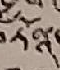བཏོན་
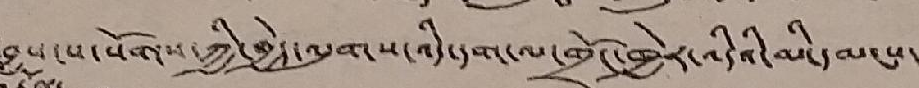བྱས་པ་སོགས་ཀྱི་གྱེད་ལུགས་འདི་དག་ལ་གྲོང་ཁྱེར་འདིའི་མི་དམངས་
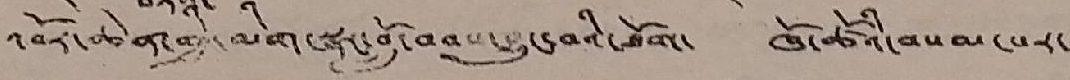འབོར་ཆེན་གྱི་མིག་སྣང་བློ་བབས་བྱུང་བའི་ཐོག་ ཁོ་ཚོའི་བསམ་པར་
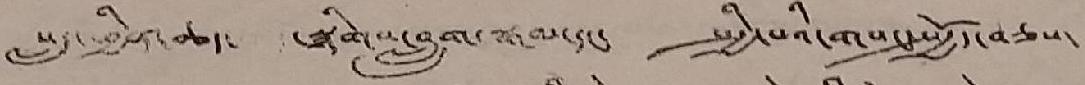སླར་ཕྱིན་ཆད་ སྙིགས་བླུགས་སྒམ་དང་ སྤྱི་པའི་གསང་སྤྱོད་བཅས་
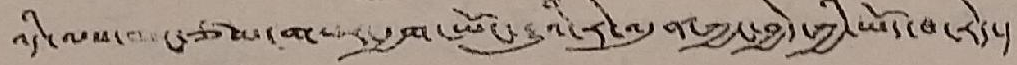འདི་ལས་མང་ཙམ་གསར་རྒྱག་ཡོང་རྒྱུའི་རེ་འདུན་ཀྱང་བྱེད་ཀྱི་ཡོད་པ་རེད་།
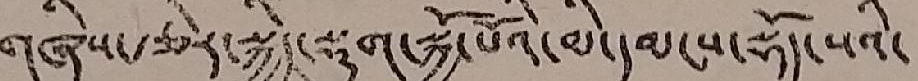གཞིས་རྩེར་སྐྱིད་སྡུག་སྐྱོ་པོའི་མི་དམངས་སྡོད་པའི་
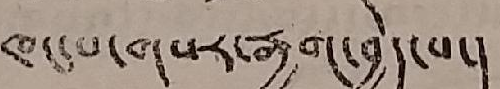ཁང་པ་གསར་རྒྱག་བྱེད་པ་།
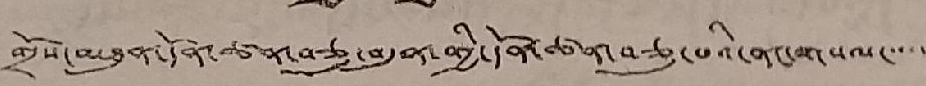གྲོས་མཐུན་དོན་ཚན་བཅུ་བདུན་གྱི་དོན་ཚན་བཅུ་པའི་ནང་གསལ་ལ་་་་་
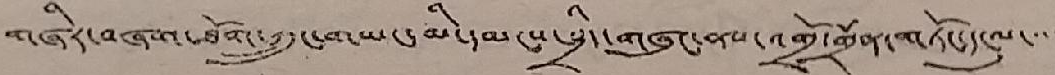གཞིར་བཞག་ཐོག་ཀྲུང་གཡང་མི་དམངས་སྲིད་གཞུང་ནས་འགྲོ་གྲོན་གཏོང་དངུལ་་་་
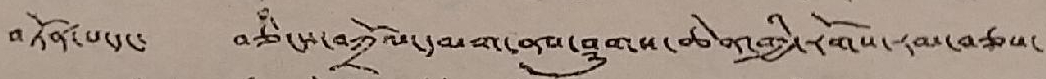བཏོན་པ་དང་ བཅིངས་བཀྲོལ་དམག་ནས་ཤུགས་ཆེན་གྱི་རོགས་རམ་བཅས་
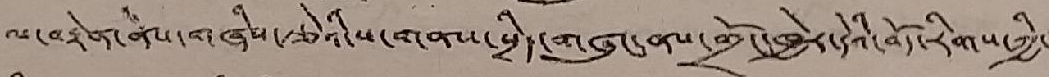ལ་བརྟེན་ནས་གཞིས་རྩེའི་ས་གནས་སྲིད་གཞུང་ནས་གྲོང་ཁྱེར་དེའི་བོད་རིགས་ཀྱི་
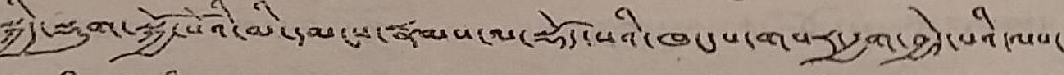སྐྱིད་སྡུག་སྐྱོ་པོའི་མི་དམངས་རྣམས་ལ་སྡོད་པའི་ཁང་པ་གསར་རྒྱག་བྱེད་པའི་ལས་
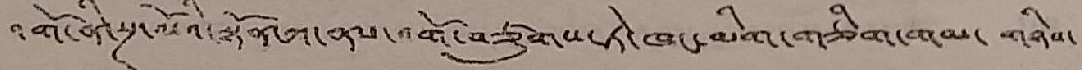འགོ་ནི་སྔ་ལོའི་སྟོན་ཀ་ནས་འགོ་བཙུགས་ཏེ་ཁང་མིག་གཅིག་གམ་ གཉིས་
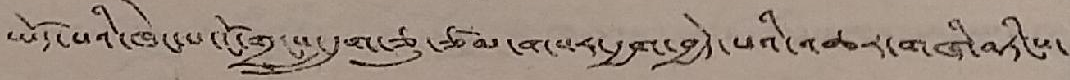ཡོད་པའི་ཁང་པ་ངོ་གྲངས་དྲུག་ཅུ་ཙམ་གསར་རྒྱག་བྱེད་པའི་འཆར་གཞི་བཏིངས་
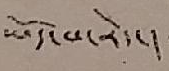ཡོད་པ་རེད་།
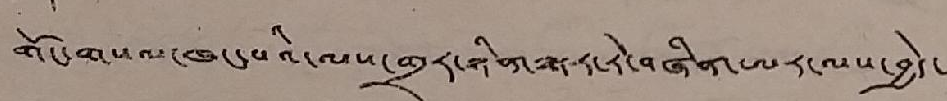གོང་གསལ་ཁང་པའི་ལས་གྲར་ཉིན་ལྟར་རེ་བཞིན་ཨར་ལས་བྱེད་
